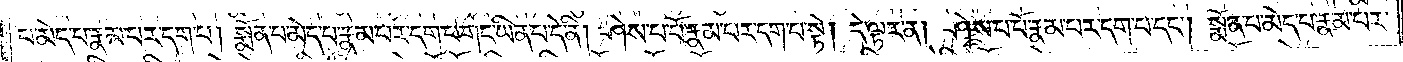པ་མེད་པ་རྣམ་པར་དག་པ། སྨོན་པ་མེད་པ་རྣམ་པར་དག་པ་གང་ཡིན་པ་དེ་ནི། ཤེས་པ་པོ་རྣམ་པར་དག་པ་སྟེ། དེ་ལྟར་ན། ཤེས་པ་པོ་རྣམ་པར་དག་པ། སྨོན་པ་མེད་པ་རྣམ་པར་
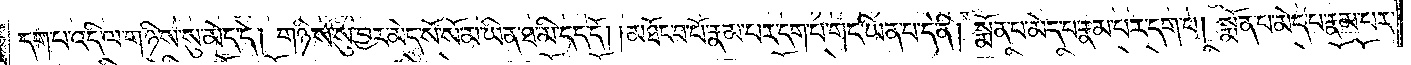དག་པ་འདི་ལ་གཉིས་སུ་མེད་དེ། གཉིས་སུ་བྱར་མེད་སོ་སོ་མ་ཡིན་ཐ་མི་དད་དོ། མཐོང་བ་པོ་རྣམ་པར་དག་པ་གང་པ་གང་ཡིན་པ་དེ་ནི། སྨོན་པ་མེད་པ་རྣམ་པར་དག་པ། སྨོན་པ་མེད་པ་རྣམ་པར་
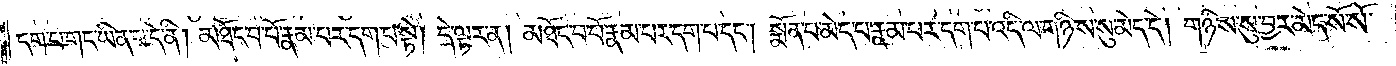དག་པ་གང་ཡིན་པ་དེ་ནི། མཐོང་བ་པོ་རྣམ་པར་དག་པ་སྟེ། དེ་ལྟར་ན། མཐོང་བ་པོ་རྣམ་པར་དག་པ་དང༌། སྨོན་པ་མེད་པ་རྣམ་པར་དག་པ་འདི་ལ་གཉིས་སུ་མེད་དེ། གཉིས་སུ་བྱར་མེད་སོ་སོ་
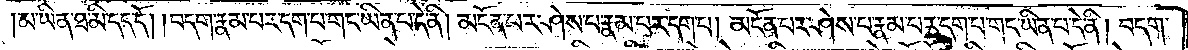མ་ཡིན་ཐ་མི་དད་དོ། །བདག་རྣམ་པར་དག་པ་གང་ཡིན་པ་དེ་ནི། མངོན་པར་ཤེས་པ་རྣམ་པར་དག་པ། མངོན་པར་ཤེས་པ་རྣམ་པར་དག་པ་གང་ཡིན་པ་དེ་ནི། བདག་
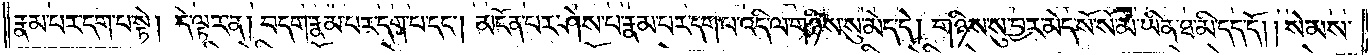རྣམ་པར་དག་པ་སྟེ། དེ་ལྟར་ན། བདག་རྣམ་པར་དག་པ་དང༌། མངོན་པར་ཤེས་པ་རྣམ་པར་དག་པ་འདི་ལ་གཉིས་སུ་མེད་དེ། གཉིས་སུ་བྱར་མེད་སོ་སོ་མ་ཡིན་ཐ་མི་དད་དོ། །སེམས་
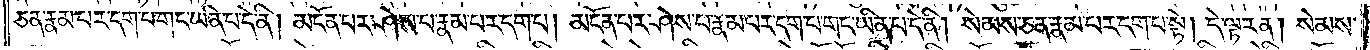ཅན་རྣམ་པར་དག་པ་གང་ཡིན་པ་དེ་ནི། མངོན་པར་ཤེས་པ་རྣམ་པར་དག་པ། མངོན་པར་ཤེས་པ་རྣམ་པར་དག་པ་གང་ཡིན་པ་དེ་ནི། སེམས་ཅན་རྣམ་པར་དག་པ་སྟེ། དེ་ལྟར་ན། སེམས་
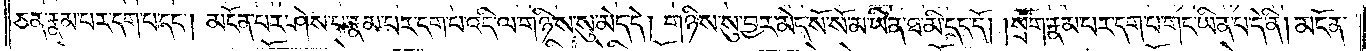ཅན་རྣམ་པར་དག་པ་དང༌། མངོན་པར་ཤེས་པ་རྣམ་པར་དག་པ་འདི་ལ་གཉིས་སུ་མེད་དེ། གཉིས་སུ་བྱར་མེད་སོ་སོ་མ་ཡིན་ཐ་མི་དད་དོ། །སྲོག་རྣམ་པར་དག་པ་གང་ཡིན་པ་དེ་ནི། མངོན་
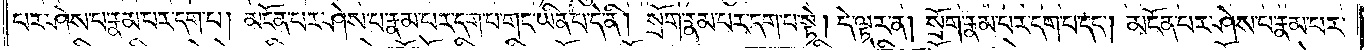པར་ཤེས་པ་རྣམ་པར་དག་པ། མངོན་པར་ཤེས་པ་རྣམ་པར་དག་པ་གང་ཡིན་པ་དེ་ནི། སྲོག་རྣམ་པར་དག་པ་སྟེ། དེ་ལྟར་ན། སྲོག་རྣམ་པར་དག་པ་དང༌། མངོན་པར་ཤེས་པ་རྣམ་པར་
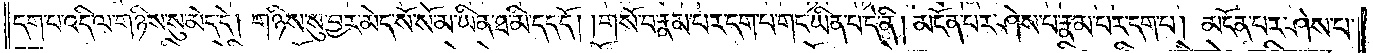དག་པ་འདི་ལ་གཉིས་སུ་མེད་དེ། གཉིས་སུ་བྱར་མེད་སོ་སོ་མ་ཡིན་ཐ་མི་དད་དོ། །གསོ་བ་རྣམ་པར་དག་པ་གང་ཡིན་པ་དེ་ནི། མངོན་པར་ཤེས་པ་རྣམ་པར་དག་པ། མངོན་པར་ཤེས་པ་
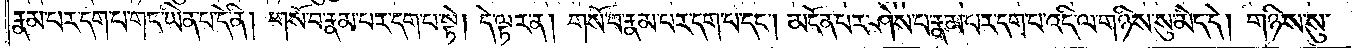རྣམ་པར་དག་པ་གང་ཡིན་པ་དེ་ནི། གསོ་བ་རྣམ་པར་དག་པ་སྟེ། དེ་ལྟར་ན། གསོ་བ་རྣམ་པར་དག་པ་དང༌། མངོན་པར་ཤེས་པ་རྣམ་པར་དག་པ་འདི་ལ་གཉིས་སུ་མེད་དེ། གཉིས་སུ་
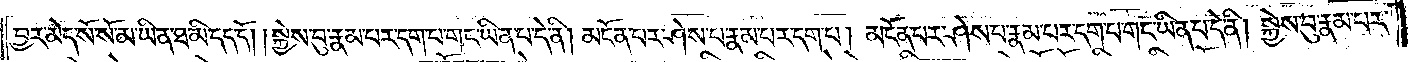བྱར་མེད་སོ་སོ་མ་ཡིན་ཐ་མི་དད་དོ། །སྐྱེས་བུ་རྣམ་པར་དག་པ་གང་ཡིན་པ་དེ་ནི། མངོན་པར་ཤེས་པ་རྣམ་པར་དག་པ། མངོན་པར་ཤེས་པ་རྣམ་པར་དག་པ་གང་ཡིན་པ་དེ་ནི། སྐྱེས་བུ་རྣམ་པར་
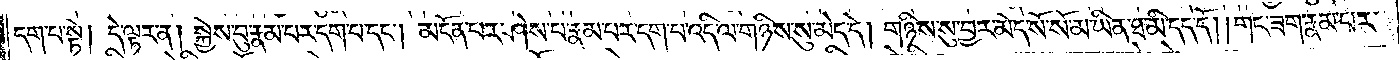དག་པ་སྟེ། དེ་ལྟར་ན། སྐྱེས་བུ་རྣམ་པར་དག་པ་དང༌། མངོན་པར་ཤེས་པ་རྣམ་པར་དག་པ་འདི་ལ་གཉིས་སུ་མེད་དེ། གཉིས་སུ་བྱར་མེད་སོ་སོ་མ་ཡིན་ཐ་མི་དད་དོ། །གང་ཟག་རྣམ་པར་
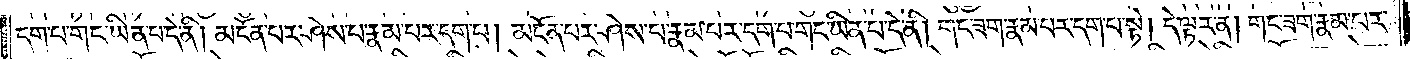དག་པ་གང་ཡིན་པ་དེ་ནི། མངོན་པར་ཤེས་པ་རྣམ་པར་དག་པ། མངོན་པར་ཤེས་པ་རྣམ་པར་དག་པ་གང་ཡིན་པ་དེ་ནི། གང་ཟག་རྣམ་པར་དག་པ་སྟེ། དེ་ལྟར་ན། གང་ཟག་རྣམ་པར་
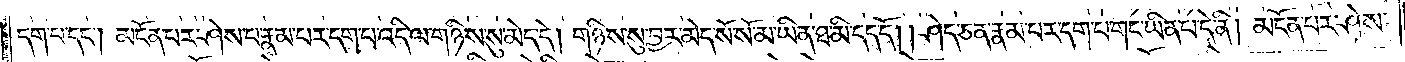དག་པ་དང༌། མངོན་པར་ཤེས་པ་རྣམ་པར་དག་པ་འདི་ལ་གཉིས་སུ་མེད་དེ། གཉིས་སུ་བྱར་མེད་སོ་སོ་མ་ཡིན་ཐ་མི་དད་དོ། །ཤེད་ཅན་རྣམ་པར་དག་པ་གང་ཡིན་པ་དེ་ནི། མངོན་པར་ཤེས་
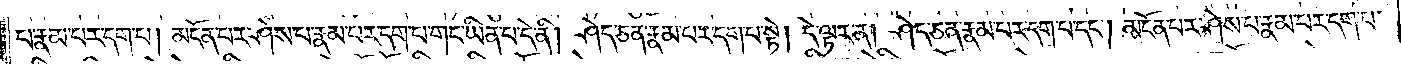པ་རྣམ་པར་དག་པ། མངོན་པར་ཤེས་པ་རྣམ་པར་དག་པ་གང་ཡིན་པ་དེ་ནི། ཤེད་ཅན་རྣམ་པར་དག་པ་སྟེ། དེ་ལྟར་ན། ཤེད་ཅན་རྣམ་པར་དག་པ་དང༌། མངོན་པར་ཤེས་པ་རྣམ་པར་དག་པ་
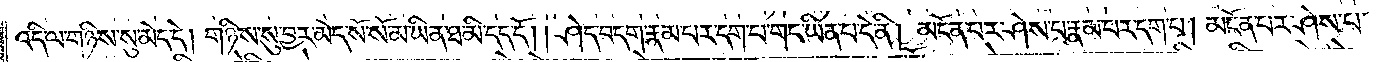འདི་ལ་གཉིས་སུ་མེད་དེ། གཉིས་སུ་བྱར་མེད་སོ་སོ་མ་ཡིན་ཐ་མི་དད་དོ། །ཤེད་བདག་རྣམ་པར་དག་པ་གང་ཡིན་པ་དེ་ནི། མངོན་པར་ཤེས་པ་རྣམ་པར་དག་པ། མངོན་པར་ཤེས་པ་
